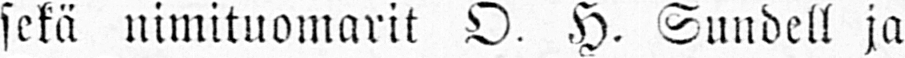sekä nimituomarit O. H. Sundell ja
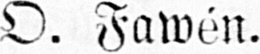O. Fawén.
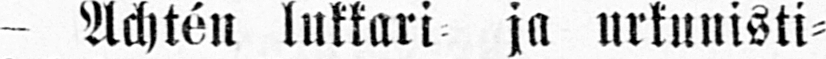- Achtén lukkari- ja urkunisti-
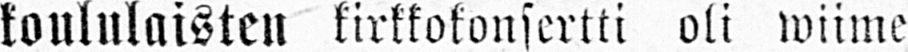koululaisten kirkkokonsertti oli wiime
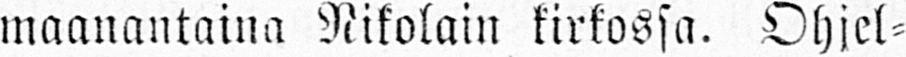maanantaina Nikolain kirkossa. Ohjel-
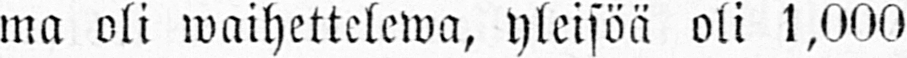ma oli waihettelewa, yleisöä oli 1,000
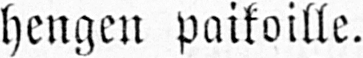hengen paikoille.
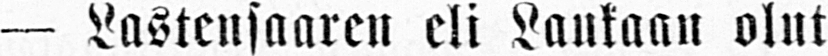— Lastensaaren eli Laukaan olut-
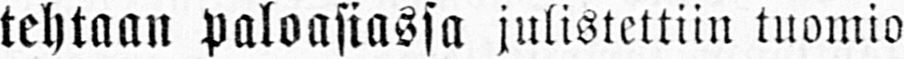tehtaan paloasiassa julistettiin tuomio
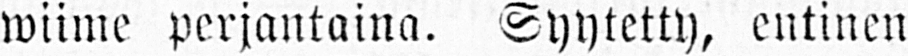wiime perjantaina. Syytetty, entinen
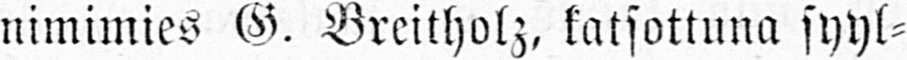nimimies G. Breitholz, katsottuna syyl-
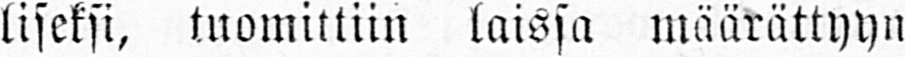liseksi, tuomittiin laissa määrättyyn
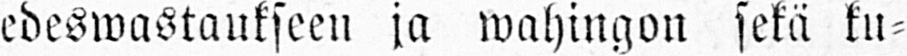edeswastaukseen ja wahingon sekä ku-
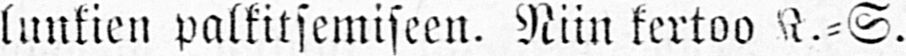lunkien palkitsemiseen. Niin kertoo K.-S.
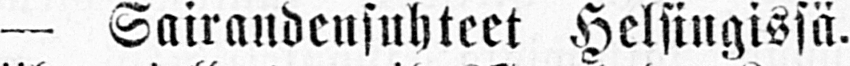— Sairaudensuhteet Helsingissä.
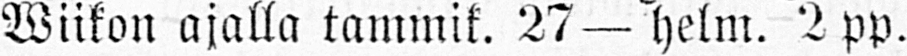Wiikon ajalla tammik. 27— Helm. 2 pp.
